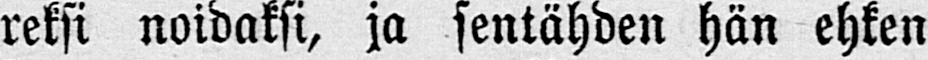reksi noidaksi, ja sentähden hän ehken
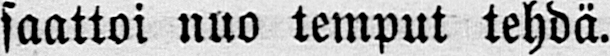saattoi nuo temput tehdä.
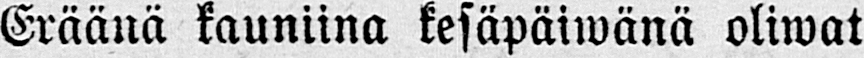Eräänä kauniina kesäpäiwänä oliwat
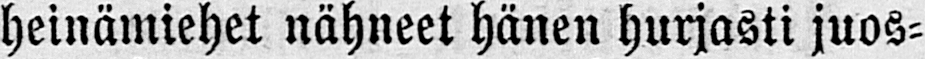heinämiehet nähneet hänen hurjasti juos-
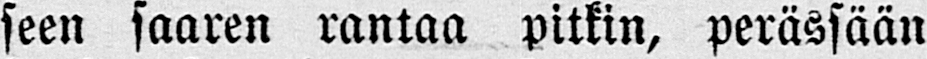seen saaren rantaa pitkin, perässään
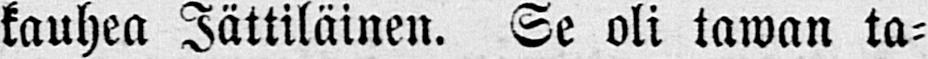kauhea Jättiläinen. Se oli tawan ta-
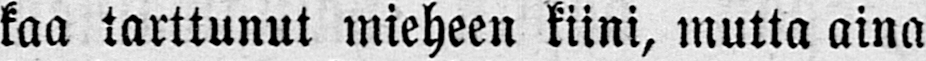kaa tarttunut mieheen kiini, mutta aina
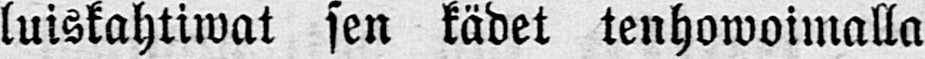luiskahtiwat sen kädet tenhowoimalla
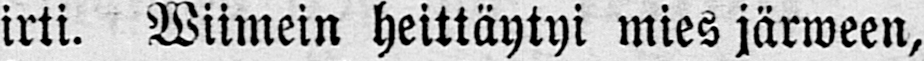irti. Wiimein heittäytyi mies järween,
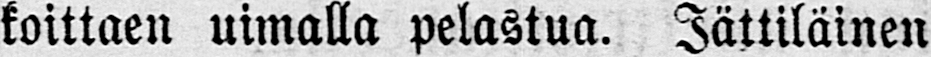koittaen uimalla pelastua. Jättiläinen
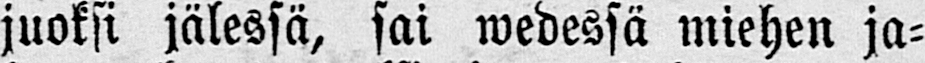juoksi jälessä, sai wedessä miehen ja-
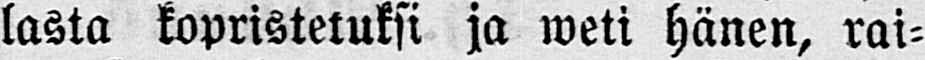lasta kopristekuksi ja weti hänen, rai-
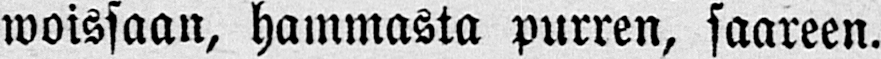woissaan, hammasta purren, saareen.
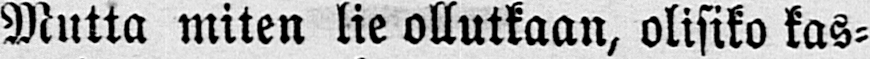Mutta miten lie ollutkaan, olisiko kas-
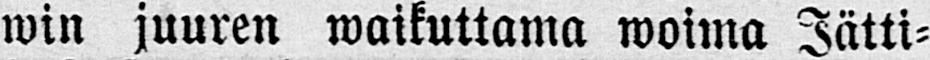win juuren waikuttama woima Jätti-
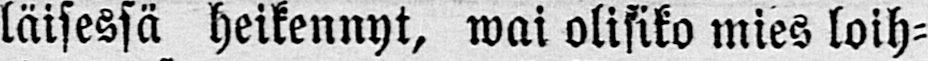läisessä heikennyt, wai olisiko mies loih-
